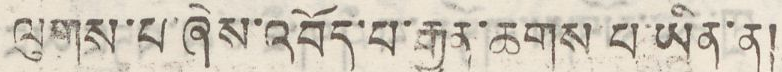ལུགས་པ་ཞེས་འབོད་པ་རྒྱུན་ཆགས་པ་ཡིན་ན།
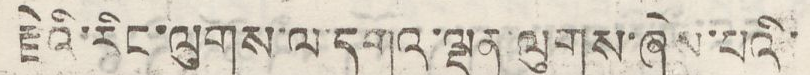རྗེའི་རིང་ལུགས་ལ་དགའ་ལྡན་ལུགས་ཞེས་པའི་
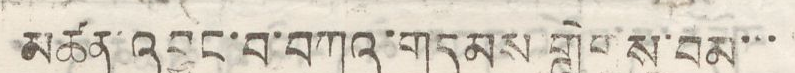མཚན་འབྱུང་བ་བཀའ་གདམས གླིགས་བམ་་་
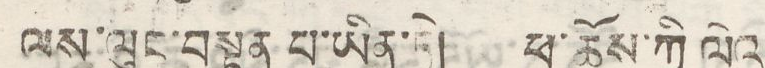ལས་ལུང་བསྟན པ་ཡིན་ཏེ། ཕ་ཆོས་ཀྱི ལེའུ
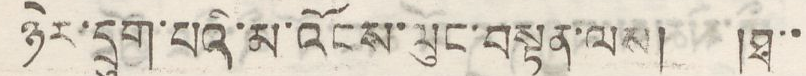ཉེར་དྲུག་པའི་མ་འོངས་ལུང་བསྟན་ལས། །ཐ་་
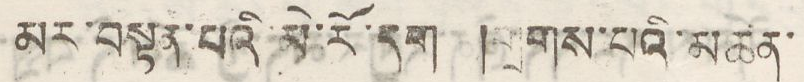མར་བསྟན་པའི་མེ་རོ་དག །གྲགས་པའི་མཚན་
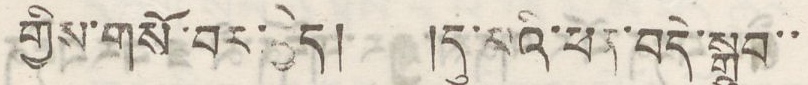གྱིས་གསོ་བར་བྱེད། །དུ་མའི་ཕན་བདེ་སྒྲུབ་་
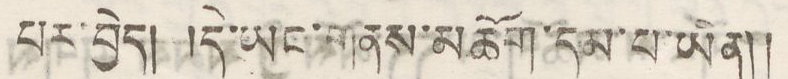པར་བྱེད། དེ་ཡང་གནས་མཆོག་དམ་པ་ཡིན།།
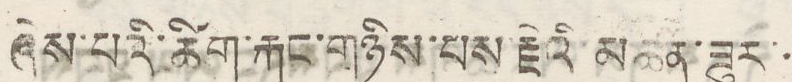ཞེས་པའི་ཚིག་རྐང་གཉིས་པས་རྗེའི མཚན་ཟུར་
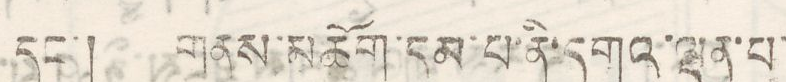དང་། གནས་མཆོག་དམ་པ་ནི་དགའ་ལྡན་པ་
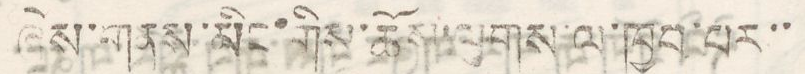ཞེས་གནས་མིང་གིས་ཆོས་ལུགས་ལ་ཁྱབ་པར་་
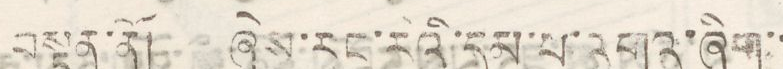བསྟན་ནོ། ཞེས་རང་རེའི་དམ་པ་འགའ་ཞིག་་
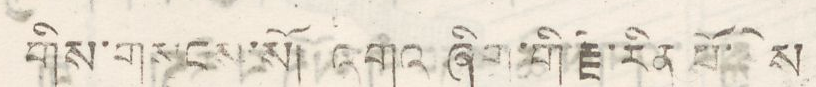གིས་གསངས་སོ། འགའ་ཞིག་གི་རྗེ་རིན་པོ་ཆེས
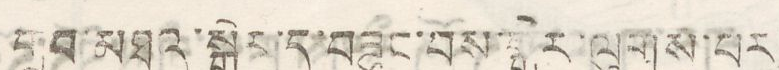གྲུབ་མཐའ་སྒེར་དུ་བཟུང་བས་སྒེར་ལུགས་པར་
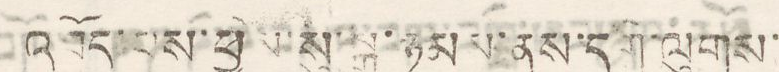འབོད་པས་ཕྱིས་སུ་སྒྲ་ཉམས་ནས་དགེ་ལུགས་
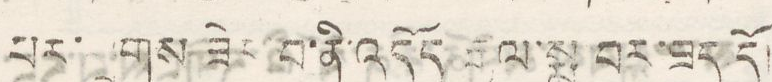པར་གྲགས་ཟེར་བ་ནི་འདོད་རྒྱལ་སྨྲ་བར་ཟད་དོ
